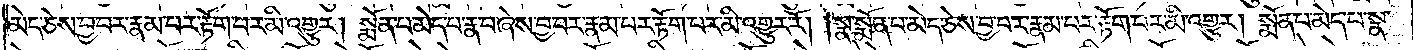མེད་ཅེས་བྱ་བར་རྣམ་པར་རྟོག་པར་མི་འགྱུར། སྨོན་པ་མེད་པ་རྣ་བ་ཞེས་བྱ་བར་རྣམ་པར་རྟོག་པར་མི་འགྱུར་རོ། །སྣ་སྨོན་པ་མེད་ཅེས་བྱ་བར་རྣམ་པར་རྟོག་པར་མི་འགྱུར། སྨོན་པ་མེད་པ་སྣ་
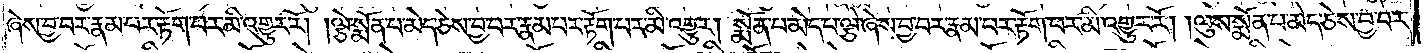ཞེས་བྱ་བར་རྣམ་པར་རྟོག་པར་མི་འགྱུར་རོ། །ལྕེ་སྨོན་པ་མེད་ཅེས་བྱ་བར་རྣམ་པར་རྟོག་པར་མི་འགྱུར། སྨོན་པ་མེད་པ་ལྕེ་ཞེས་བྱ་བར་རྣམ་པར་རྟོག་པར་མི་འགྱུར་རོ། །ལུས་སྨོན་པ་མེད་ཅེས་བྱ་བར་
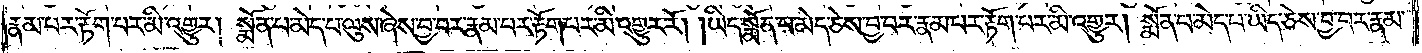རྣམ་པར་རྟོག་པར་མི་འགྱུར། སྨོན་པ་མེད་པ་ལུས་ཞེས་བྱ་བར་རྣམ་པར་རྟོག་པར་མི་འགྱུར་རོ། །ཡིད་སྨོན་པ་མེད་ཅེས་བྱ་བར་རྣམ་པར་རྟོག་པར་མི་འགྱུར། སྨོན་པ་མེད་པ་ཡིད་ཅེས་བྱ་བར་རྣམ་
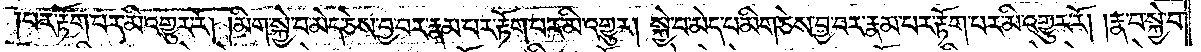པར་རྟོག་པར་མི་འགྱུར་རོ། །མིག་སྐྱེ་བ་མེད་ཅེས་བྱ་བར་རྣམ་པར་རྟོག་པར་མི་འགྱུར། སྐྱེ་བ་མེད་པ་མིག་ཅེས་བྱ་བར་རྣམ་པར་རྟོག་པར་མི་འགྱུར་རོ། །རྣ་བ་སྐྱེ་བ་
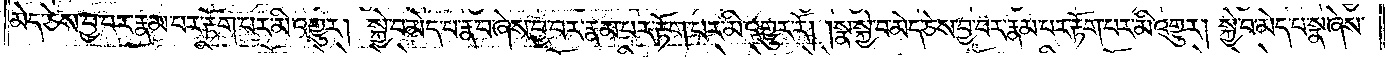མེད་ཅེས་བྱ་བར་རྣམ་པར་རྟོག་པར་མི་འགྱུར། སྐྱེ་བ་མེད་པ་རྣ་བ་ཞེས་བྱ་བར་རྣམ་པར་རྟོག་པར་མི་འགྱུར་རོ། །སྣ་སྐྱེ་བ་མེད་ཅེས་བྱ་བར་རྣམ་པར་རྟོག་པར་མི་འགྱུར། སྐྱེ་བ་མེད་པ་སྣ་ཞེས་
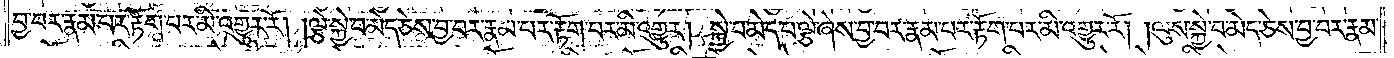བྱ་བར་རྣམ་པར་རྟོག་པར་མི་འགྱུར་རོ། །ལྕེ་སྐྱེ་བ་མེད་ཅེས་བྱ་བར་རྣམ་པར་རྟོག་པར་མི་འགྱུར། སྐྱེ་བ་མེད་པ་ལྕེ་ཞེས་བྱ་བར་རྣམ་པར་རྟོག་པར་མི་འགྱུར་རོ། །ལུས་སྐྱེ་བ་མེད་ཅེས་བྱ་བར་རྣམ་
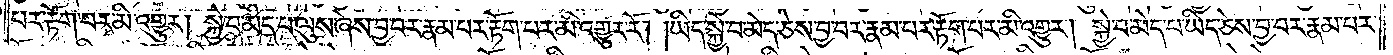པར་རྟོག་པར་མི་འགྱུར། སྐྱེ་བ་མེད་པ་ལུས་ཞེས་བྱ་བར་རྣམ་པར་རྟོག་པར་མི་འགྱུར་རོ། །ཡིད་སྐྱེ་བ་མེད་ཅེས་བྱ་བར་རྣམ་པར་རྟོག་པར་མི་འགྱུར། སྐྱེ་བ་མེད་པ་ཡིད་ཅེས་བྱ་བར་རྣམ་པར་
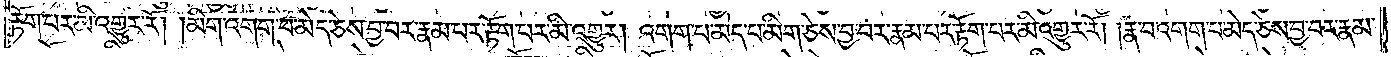རྟོག་པར་མི་འགྱུར་རོ། །མིག་འགག་པ་མེད་ཅེས་བྱ་བར་རྣམ་པར་རྟོག་པར་མི་འགྱུར། འགག་པ་མེད་པ་མིག་ཅེས་བྱ་བར་རྣམ་པར་རྟོག་པར་མི་འགྱུར་རོ། །རྣ་བ་འགག་པ་མེད་ཅེས་བྱ་བར་རྣམ་
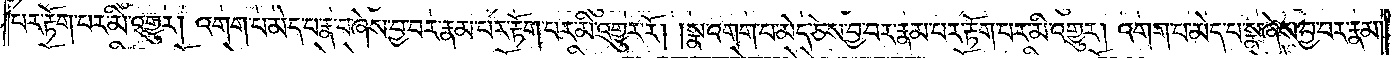པར་རྟོག་པར་མི་འགྱུར། འགག་པ་མེད་པ་རྣ་བ་ཞེས་བྱ་བར་རྣམ་པར་རྟོག་པར་མི་འགྱུར་རོ། །སྣ་འགག་པ་མེད་ཅེས་བྱ་བར་རྣམ་པར་རྟོག་པར་མི་འགྱུར། འགག་པ་མེད་པ་སྣ་ཞེས་བྱ་བར་རྣམ་
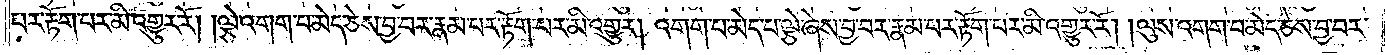པར་རྟོག་པར་མི་འགྱུར་རོ། །ལྕེ་འགག་པ་མེད་ཅེས་བྱ་བར་རྣམ་པར་རྟོག་པར་མི་འགྱུར། འགག་པ་མེད་པ་ལྕེ་ཞེས་བྱ་བར་རྣམ་པར་རྟོག་པར་མི་འགྱུར་རོ། །ལུས་འགག་པ་མེད་ཅེས་བྱ་བར་
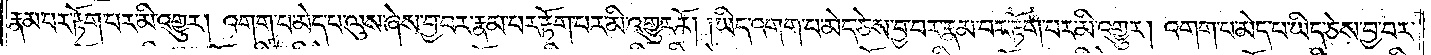རྣམ་པར་རྟོག་པར་མི་འགྱུར། འགག་པ་མེད་པ་ལུས་ཞེས་བྱ་བར་རྣམ་པར་རྟོག་པར་མི་འགྱུར་རོ། །ཡིད་འགག་པ་མེད་ཅེས་བྱ་བར་རྣམ་པར་རྟོག་པར་མི་འགྱུར། འགག་པ་མེད་པ་ཡིད་ཅེས་བྱ་བར་
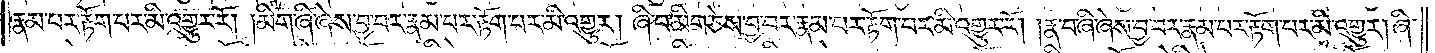རྣམ་པར་རྟོག་པར་མི་འགྱུར་རོ། །མིག་ཞི་ཞེས་བྱ་བར་རྣམ་པར་རྟོག་པར་མི་འགྱུར། ཞི་བ་མིག་ཅེས་བྱ་བར་རྣམ་པར་རྟོག་པར་མི་འགྱུར་རོ། །རྣ་བ་ཞི་ཞེས་བྱ་བར་རྣམ་པར་རྟོག་པར་མི་འགྱུར། ཞི་
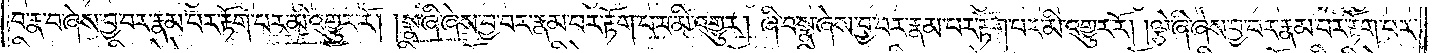བ་རྣ་བ་ཞེས་བྱ་བར་རྣམ་པར་རྟོག་པར་མི་འགྱུར་རོ། །སྣ་ཞི་ཞེས་བྱ་བར་རྣམ་པར་རྟོག་པར་མི་འགྱུར། ཞི་བ་སྣ་ཞེས་བྱ་བར་རྣམ་པར་རྟོག་པར་མི་འགྱུར་རོ། །ལྕེ་ཞི་ཞེས་བྱ་བར་རྣམ་པར་རྟོག་པར་
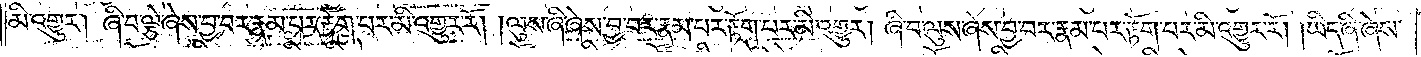མི་འགྱུར། ཞི་བ་ལྕེ་ཞེས་བྱ་བར་རྣམ་པར་རྟོག་པར་མི་འགྱུར་རོ། །ལུས་ཞི་ཞེས་བྱ་བར་རྣམ་པར་རྟོག་པར་མི་འགྱུར། ཞི་བ་ལུས་ཞེས་བྱ་བར་རྣམ་པར་རྟོག་པར་མི་འགྱུར་རོ། །ཡིད་ཞི་ཞེས་
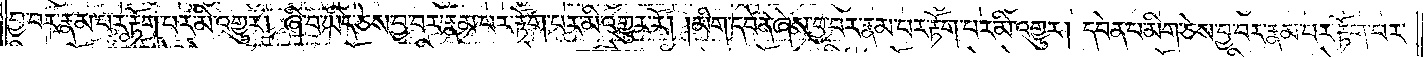བྱ་བར་རྣམ་པར་རྟོག་པར་མི་འགྱུར། ཞི་བ་ཡིད་ཅེས་བྱ་བར་རྣམ་པར་རྟོག་པར་མི་འགྱུར་རོ། །མིག་དབེན་ཞེས་བྱ་བར་རྣམ་པར་རྟོག་པར་མི་འགྱུར། དབེན་པ་མིག་ཅེས་བྱ་བར་རྣམ་པར་རྟོག་པར་
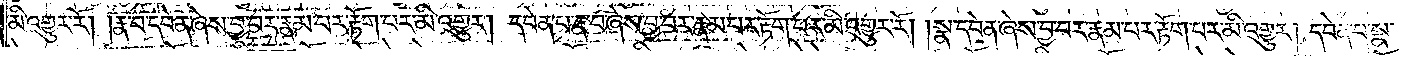མི་འགྱུར་རོ། །རྣ་བ་དབེན་ཞེས་བྱ་བར་རྣམ་པར་རྟོག་པར་མི་འགྱུར། དབེན་པ་རྣ་བ་ཞེས་བྱ་བར་རྣམ་པར་རྟོག་པར་མི་འགྱུར་རོ། །སྣ་དབེན་ཞེས་བྱ་བར་རྣམ་པར་རྟོག་པར་མི་འགྱུར། དབེན་པ་སྣ་
